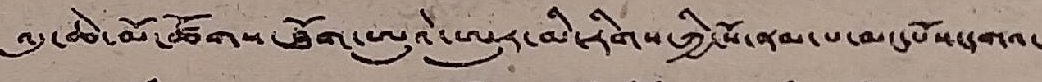འདུ་ཆེ་མོ་ཚོགས་ཐོག་ཨུའེ་ཨུར་མི་རིགས་ཀྱི་སོ་ནམ་པ་མང་པོས་དགའ་
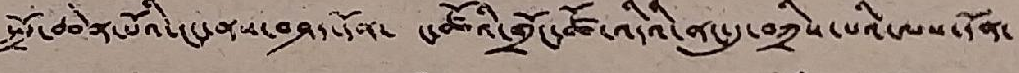སྤྲོ་ཆེན་པོའི་ངང་ནས་བཤད་དོན་ ང་ཚོའི་གྲོང་ཚོ་འདིའི་ནང་དུ་བཀྲིས་པའི་ལས་དོན་
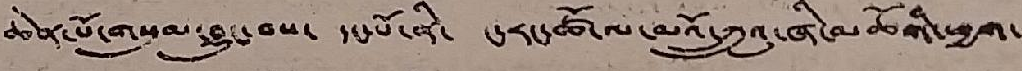ཆེན་པོ་གསུམ་བྱུང་བས་ དང་པོ་ནི་ ང་རང་ཚོ་ལ་མའོ་ཀྲུའུ་ཞི་མཆོགི་ཕྱག་
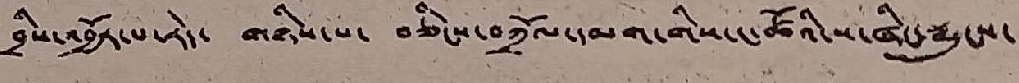བྲིས་འབྱོར་པ་རེད་ གཉིས་པ་ བཅིང་བཀྲོལ་དམག་གིས་ང་ཚོའི་ས་ཞིང་རྨུངས་
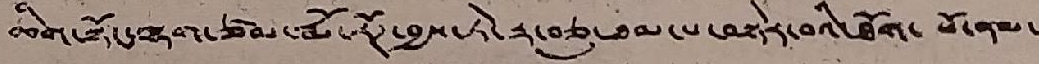ཆིག་སྟོང་ལྷག་ཙམ་རྨོ་རོཊ་བྱས་ཏེ་རྟ་བཅུ་ཐམ་པ་བསྟེར་བའི་ཐོག་ སོ་ནམ་
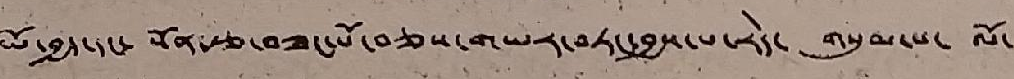ཡོ་བྱད་དང་ སོན་རྩ་བཟང་པོ་བཅས་གཡར་བཏང་བྱས་པ་རེད་ གསུམ་པ་ ལོ་
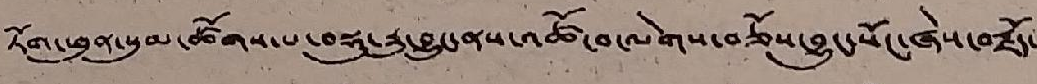ཏོག་ཕུན་སུམ་ཚོགས་པ་བསྡུ་རྒྱུ་བྱུང་ནས་འཚོ་བ་ལེགས་བཅོས་བྱུང་སོང་ཞེས་བརྗོད་
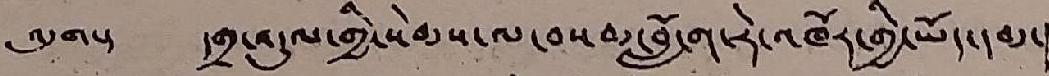འདུག། དགྲ་འདུལ་གྱི་སེམས་ལ་བསམ་བློ་ག་རེ་འཁོར་གྱི་ཡོད་དམ་
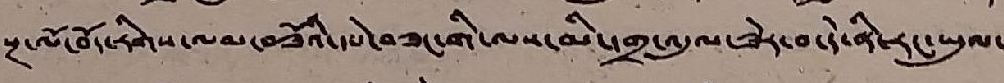སྔ་ལོ་བོད་རིགས་ལམ་བཟོའི་དཔེ་བཟང་གི་ལས་མི་དགྲ་འདུལ་ཟེར་བ་དེ་ནི་རང་ཡུལ་
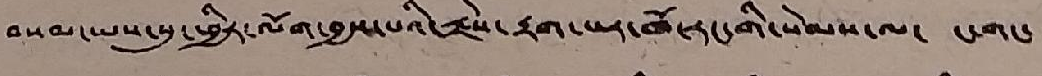བསམ་ཡས་སུ་ཕྱིར་ལོག་བྱས་པའི་རྗེས་རྟག་པར་ཁོ་རང་གི་སེམས་ལ་ ང་གང་
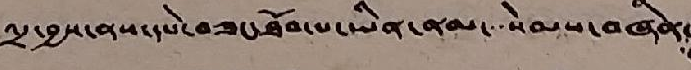འདྲ་བྱས་ནས་དཔེ་བཟང་ཐོབ་པ་ཡིན་ནམ་་སེམས་བཞིན་
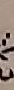པར་
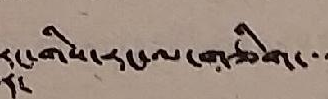རང་གིས་རང་ལ་གཅིག་་་
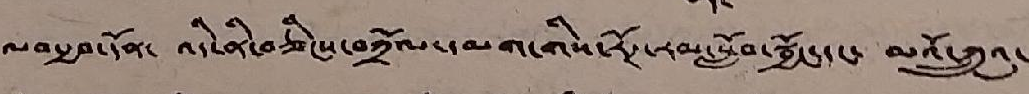ལབ་རྒྱབ་དོན་ འདི་ནི་བཅིངས་བཀྲོལ་དམག་གིས་རོཊ་རམ་སློབ་སྦྱོང་དག་ མའོ་ཀྲུའུ་
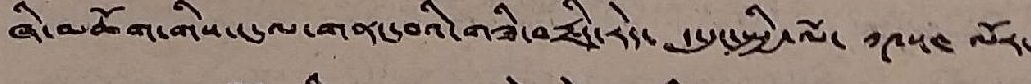ཞི་མཆོག་གིས་ང་ལ་གནང་བའི་གཟི་བརྗིད་རེད་ ད་དུང་སྤྱི་ལོ་ ༡༩༥༤ ལོར་
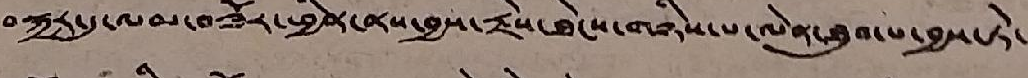བསྐྱར་དུ་ལམ་བཟོར་ཕྱིན་ནས་བྱས་རྗེས་ཐེངས་གཉིས་པ་ལེན་ཐུབ་པ་བྱས་ཏེ་
